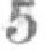5
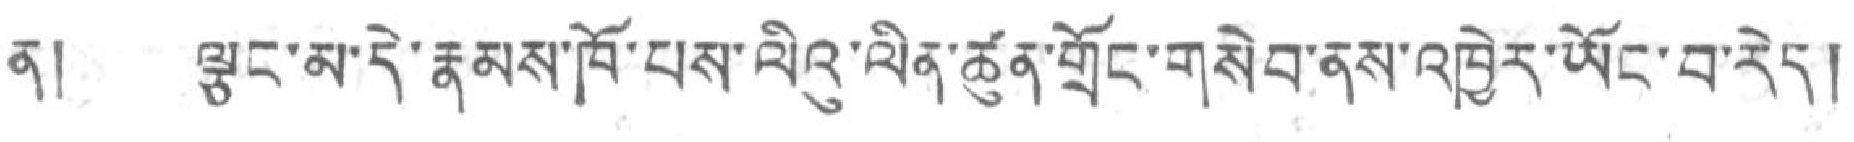ན། ལྕང་མ་དེ་རྣམས་ཁོ་པས་ལིའུ་ལིན་ཚུན་གྲོང་གསེབ་ནས་འཁྱེར་ཡོང་བ་རེད།
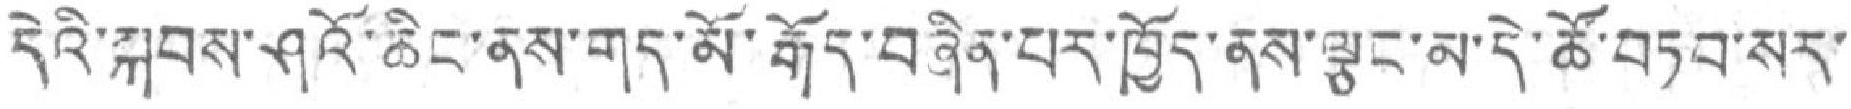དེའི་སྐབས་ཤའོ་ཆིང་ནས་གད་མོ་རྒོད་བཞིན་པར་ཁྱོད་ནས་ལྕང་མ་དེ་ཚོ་བཏབ་སར་
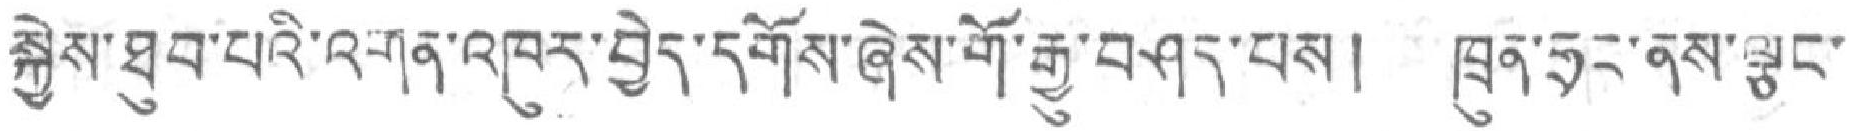སྐྱེས་ཐུབ་པའི་འགན་འཁུར་བྱེད་དགོས་ཞེས་གོ་རྒྱུ་བཤད་པས། ཁྲུན་ཧྲང་ནས་ལྕང་
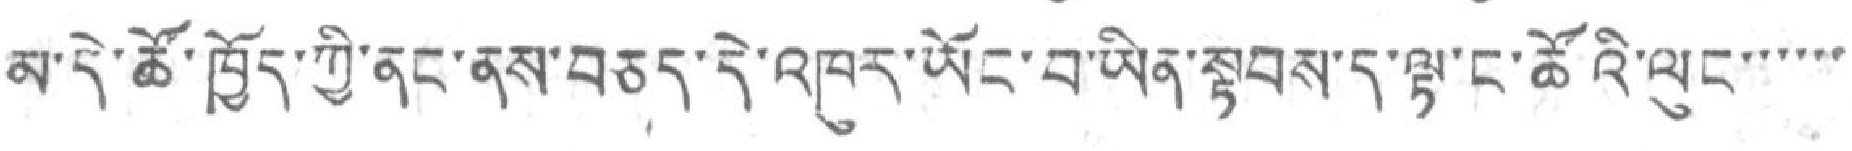མ་དེ་ཚོ་ཁྱོད་ཀྱི་ནང་ནས་བཅད་དེ་འཁུར་ཡོང་བ་ཡིན་སྟབས་ད་ལྟ་ང་ཚོའི་ལུང་་་་་་
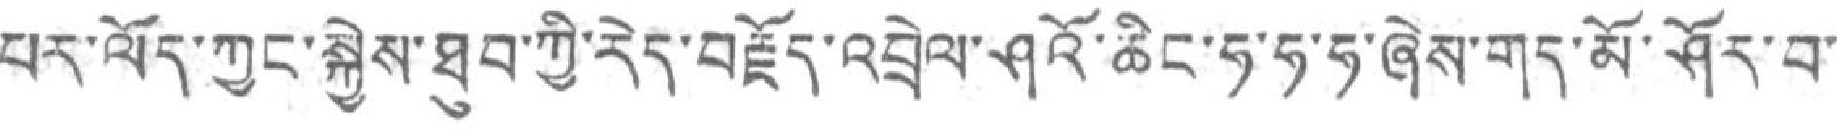པར་ལོད་ཀྱང་སྐྱེས་ཐུབ་ཀྱི་རེད་བརྗོད་འབྲེལ་ཤའོ་ཆིང་ཧ་ཧ་ཧ་ཞེས་གད་མོ་ཤོར་བ་
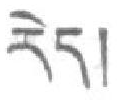རེད།
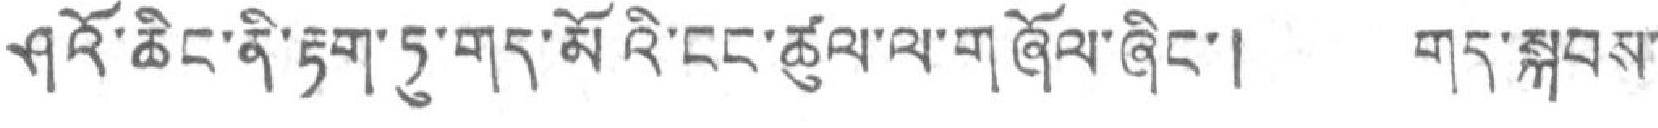ཤའོ་ཆིང་ནི་རྟག་ཏུ་གད་མོའི་ངང་ཚུལ་ལ་གཞོལ་ཞིང་། གད་སྐབས་
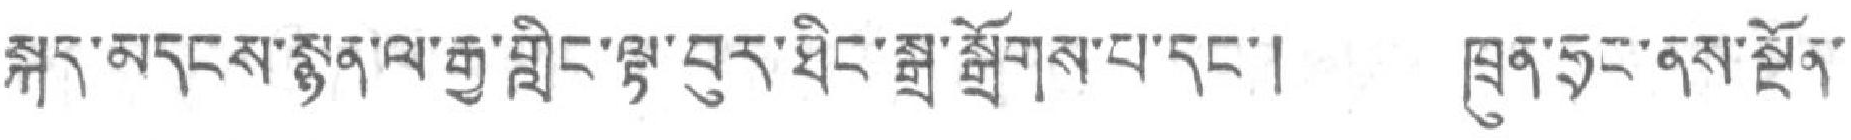སྐད་མདངས་སྙན་ལ་རྒྱ་གླིང་ལྟ་བུར་ཐིང་སྒྲ་སྒྲོགས་པ་དང་། ཁྲུན་ཧྲང་ནས་སྔོན་
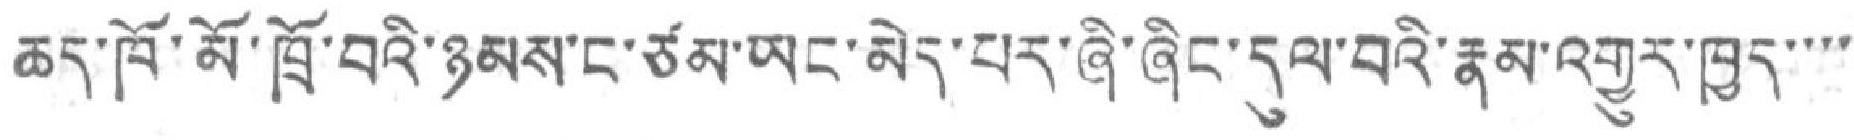ཆད་ཁོ་མོ་ཁྲོ་བའི་ཉམས་ང་ཙམ་ཡང་མེད་པར་ཞི་ཞིང་དུལ་བའི་རྣམ་འགྱུར་ཁྱད་་་་
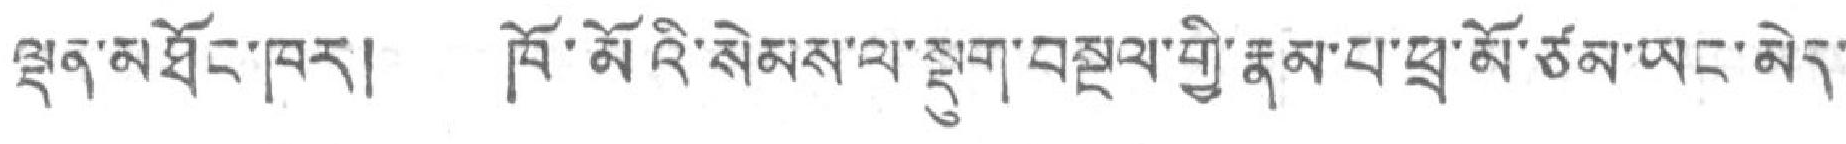ལྡན་མཐོང་ཁར། ཁོ་མོའི་སེམས་ལས་སྡུག་བསྔལ་གྱི་རྣམ་པ་ཕྲ་མོ་ཙམ་ཡང་མེད་
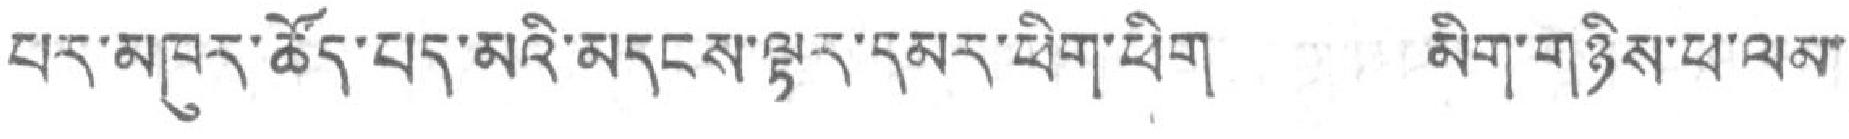པར་མཁུར་ཚོད་པད་མའི་མདངས་ལྟར་དམར་ཕིག་ཕིག མིག་གཉིས་ཕ་ལམ་
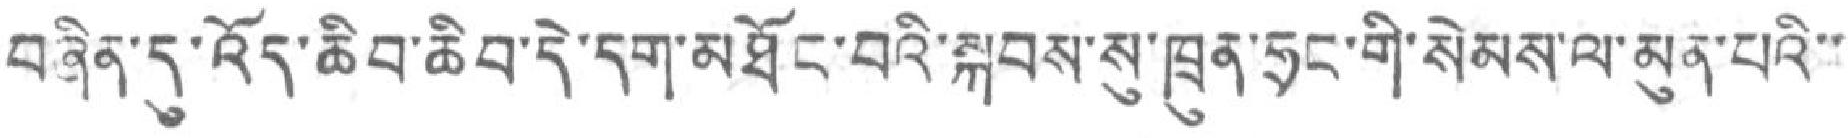བཞིན་དུ་འོད་ཆིབ་ཆིབ་དེ་དག་མཐོང་བའི་སྐབས་སུ་ཁྲུན་ཧྲང་གི་སེམས་ལ་མུན་པའི་་
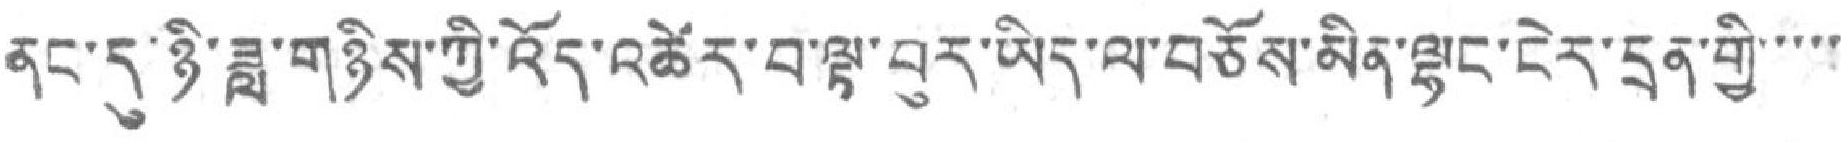ནང་དུ་ཉི་ཟླ་གཉིས་ཀྱི་འོད་འཚེར་བ་ལྟ་བུར་ཡིད་ལ་བཅོས་མིན་ལྷང་ངེར་དྲན་གྱི་་་་་
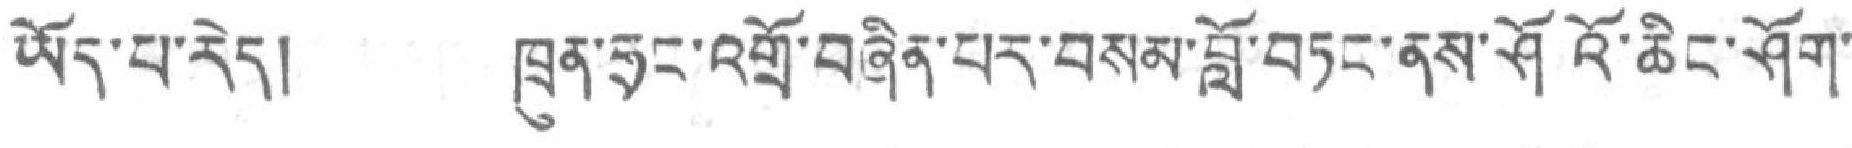ཡོད་པ་རེད། ཁྲུན་ཧང་འགྲོ་བཞིན་པར་བསམ་བློ་བཏང་ནས་ཤོའོ་ཆིང་ཤོག་
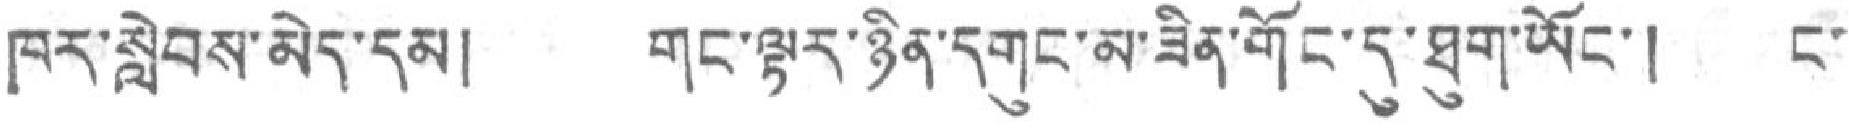ཁར་སླེབས་མེད་དམ། གུང་ལྟར་ཉིན་དགུང་མ་ཟིན་གོང་དུ་ཐུག་ཡོང་། ང་
